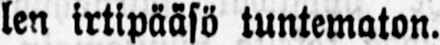len irtipääsö tuntematon.
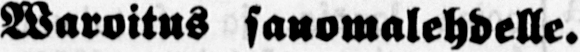Waroitus sanomalehdelle.
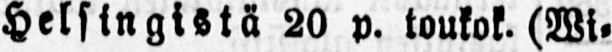Helsingistä 20 p. toukok. (Wi-
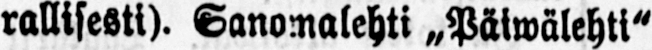rallisesti). Sanomalehti „Päiwälehti"
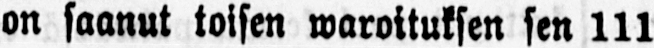on saanut toisen waroituksen sen 111
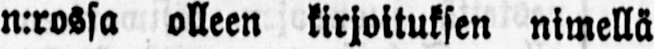n:rossa olleen kirjoituksen nimellä
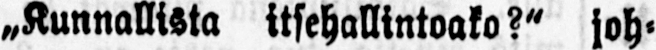„Kunnallista itsehallintoako?" joh-
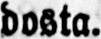dosta.
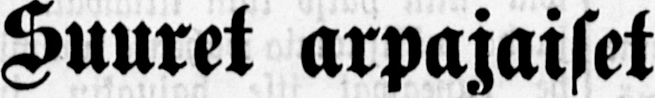Suuret arpajaiset
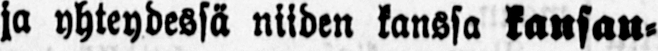ja yhteydessä niiden kanssa kansan-
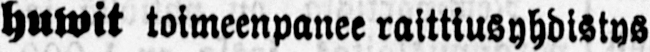huwit toimeenpanee raittiusyhdistys
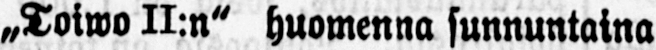„Toiwo II:n" huomenna sunnuntaina
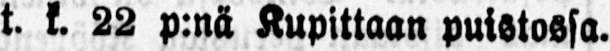t. k. 22 p:nä Kupittaan puistossa.
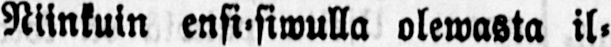Niinkuin ensi-siwulla olemasta il-
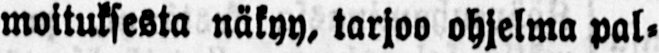moituksesta näkyy, tarjoo ohjelma pal-
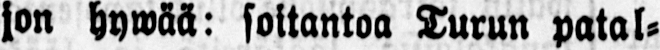jon hywää: soitantoa Turun patal-
